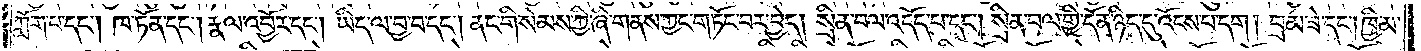ཀློག་པ་དང༌། ཁ་ཏོན་དང༌། རྣལ་འབྱོར་དང༌། ཡིད་ལ་བྱ་བ་དང༌། ནང་གི་སེམས་ཀྱི་ཞི་གནས་ཀྱང་གཏོང་བར་བྱེད། སྲིན་བལ་འདོད་པ་དང༌། སྲིན་བལ་གྱི་དོན་ཉིད་དུ་འོངས་པ་དག། བྲམ་ཟེ་དང༌། ཁྱིམ་
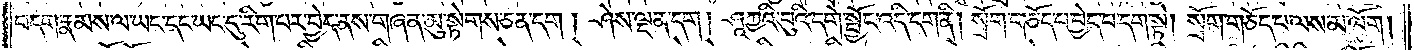བདག་རྣམས་ལ་ཡང་དང་ཡང་དུ་རིག་པར་བྱེད་ནས་གཞན་མུ་སྟེགས་ཅན་དག །ཤེས་ལྡན་དག། ཤཱཀྱའི་བུའི་དགེ་སྦྱོང་འདི་དག་ནི། སྲོག་གཅོད་པ་བྱེད་པ་དག་སྟེ། སྲོག་གཅོད་པ་ལས་མ་ལོག།
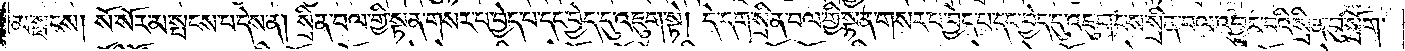མ་སྤངས། སོ་སོར་མ་སྤངས་པ་དེས་ན། སྲིན་བལ་གྱི་སྟན་གསར་པ་བྱེད་པ་དང་བྱེད་དུ་འཇུག་སྟེ། དེ་དག་སྲིན་བལ་གྱི་སྟན་གསར་པ་བྱེད་པ་དང་བྱེད་དུ་འཇུག་པས་སྲིན་བལ་འབྱུང་བའི་སྲིན་བུ་སྲོག་
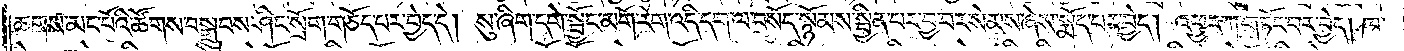ཆགས་མང་པོའི་ཚོགས་བསྒྲུབས་ཤིང་སྲོག་གཅོད་པར་བྱེད་དེ། སུ་ཞིག་དགེ་སྦྱོང་མགོ་རེག་འདི་དག་ལ་བསོད་སྙོམས་སྦྱིན་པར་བྱ་བར་སེམས་ཞེས་སྨོད་པར་བྱེད། འཕྱར་ཀ་གཏོང་བར་བྱེད། ཁ་
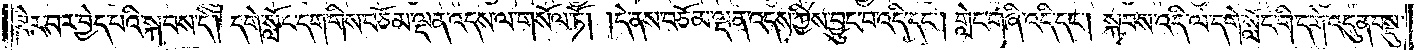ཟེར་བར་བྱེད་པའི་སྐབས་དེ། དགེ་སློང་དག་གིས་བཅོམ་ལྡན་འདས་ལ་གསོལ་ཏོ། །དེ་ནས་བཅོམ་ལྡན་འདས་ཀྱིས་བྱུང་བ་འདི་དང༌། གླེང་གཞི་འདི་དང༌། སྐབས་འདི་ལ་དགེ་སློང་གི་དགེ་འདུན་བསྡུ་
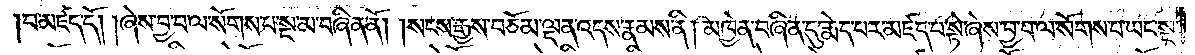བ་མཛད་དོ། །ཞེས་བྱ་བ་ལ་སོགས་པ་སྔ་མ་བཞིན་ནོ། །སངས་རྒྱས་བཅོམ་ལྡན་འདས་རྣམས་ནི། མཁྱེན་བཞིན་དུ་རྨེད་པར་མཛད་པ་སྟེ་ཞེས་བྱ་བ་ལ་སོགས་པ་ཡང་སྔ་
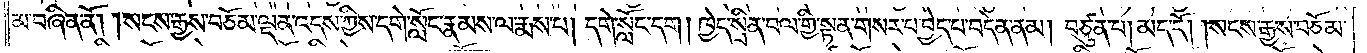མ་བཞིན་ནོ། །སངས་རྒྱས་བཅོམ་ལྡན་འདས་ཀྱིས་དགེ་སློང་རྣམས་ལ་སྨྲས་པ། དགེ་སློང་དག། ཁྱེད་སྲིན་བལ་གྱི་སྟན་གསར་པ་བྱེད་པ་བདེན་ནམ། བཙུན་པ། མད་དོ། །སངས་རྒྱས་བཅོམ་
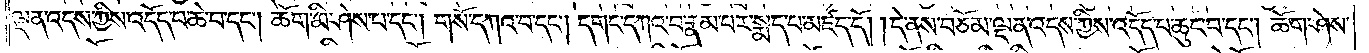ལྡན་འདས་ཀྱིས་འདོད་པ་ཆེ་བ་དང༌། ཆོག་མི་ཤེས་པ་དང༌། གསོ་དཀའ་བ་དང༌། དགང་དཀའ་བ་རྣམ་པར་སྨད་པ་མཛད་དོ། །དེ་ནས་བཅོམ་ལྡན་འདས་ཀྱིས་འདོད་པ་ཆུང་བ་དང༌། ཆོག་ཤེས་
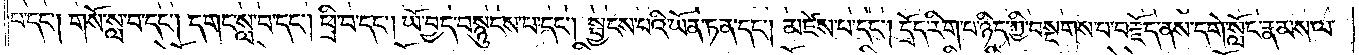པ་དང༌། གསོ་སླ་བ་དང༌། དགང་སླ་བ་དང༌། ཕྲི་བ་དང༌། ཡོ་བྱད་བསྙུངས་པ་དང༌། སྦྱངས་པའི་ཡོན་ཏན་དང༌། མཛེས་པ་དང༌། དྲོད་རིག་པ་ཉིད་ཀྱི་བསྔགས་པ་བརྗོད་ནས་དགེ་སློང་རྣམས་ལ་
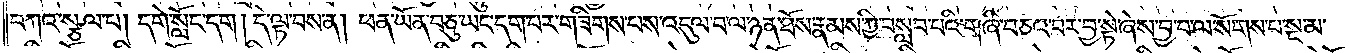བཀའ་སྩལ་པ། དགེ་སློང་དག། དེ་ལྟ་བས་ན། ཕན་ཡོན་བཅུ་ཡང་དག་པར་གཟིགས་པས་འདུལ་བ་ལ་ཉན་ཐོས་རྣམས་ཀྱི་བསླབ་པའི་གཞི་བཅའ་བར་བྱ་སྟེ་ཞེས་བྱ་བ་ལ་སོགས་པ་སྔ་མ་
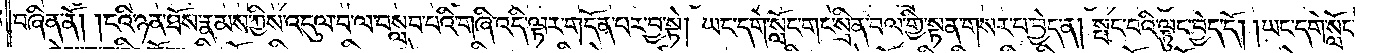བཞིན་ནོ། །ངའི་ཉན་ཐོས་རྣམས་ཀྱིས་འདུལ་བ་ལ་བསླབ་པའི་གཞི་འདི་ལྟར་གདོན་པར་བྱ་སྟེ། ཡང་དགེ་སློང་གང་སྲིན་བལ་གྱི་སྟན་གསར་པ་བྱེད་ན། སྤང་བའི་ལྟུང་བྱེད་དོ། །ཡང་དགེ་སློང་
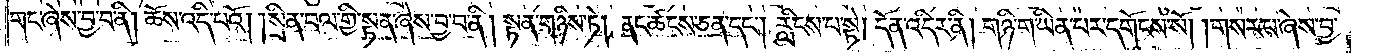གང་ཞེས་བྱ་བ་ནི། ཆོས་འདི་པའོ། །སྲིན་བལ་གྱི་སྟན་ཞེས་བྱ་བ་ནི། སྟན་གཉིས་ཏེ། ནང་ཚངས་ཅན་དང༌། རླིངས་པ་སྟེ། དོན་འདིར་ནི། གཉི་ག་ཡིན་པར་དགོངས་སོ། །གསར་པ་ཞེས་བྱ་
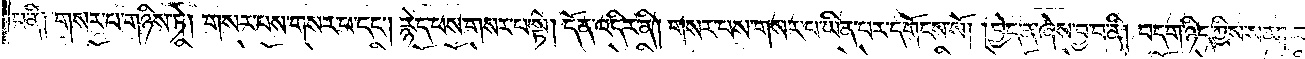པ་ནི། གསར་པ་གཉིས་ཏེ། གསར་པས་གསར་པ་དང༌། རྙེད་པས་གསར་པ་སྟེ། དོན་འདིར་ནི། གསར་པས་གསར་པ་ཡིན་པར་དགོངས་སོ། །བྱེད་ན་ཞེས་བྱ་བ་ནི། བདག་ཉིད་ཀྱིས་སམ། གཞན་བྱེད་
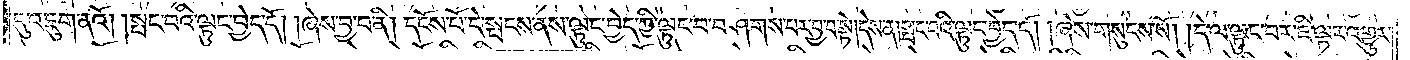དུ་འཇུག་ནའོ། །སྤང་བའི་ལྟུང་བྱེད་དོ། །ཞེས་བྱ་བ་ནི། དངོས་པོ་དེ་སྤངས་ནས་ལྟུང་བྱེད་ཀྱི་ལྟུང་བ་བཤགས་པར་བྱ་བ་སྟེ། དེས་ན། སྤང་བའི་ལྟུང་བྱེད་དོ། །ཞེས་གསུངས་སོ། །དེ་ལ་ལྟུང་བར་ཇི་ལྟར་འགྱུར་
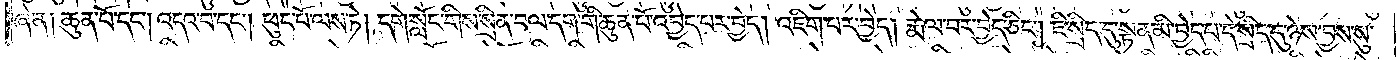ཞེ་ན། ཆུན་པོ་དང༌། འདའ་བ་དང༌། ཕུང་པོ་ལས་ཏེ། དགེ་སློང་གིས་སྲིན་བལ་དག་གི་ཆུན་པོ་འབྱེད་པར་བྱེད། འཇིག་པར་བྱེད། རྨེལ་བར་བྱེད་ཅིང༌། ཇི་སྲིད་དུ་སྟན་མི་བྱེད་པ་དེ་སྲིད་དུ་ཉེས་བྱས་སུ་
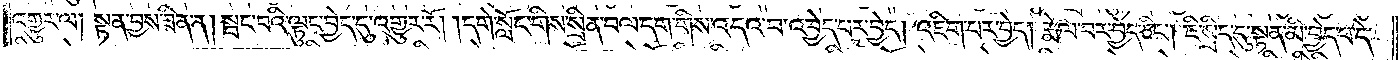འགྱུར་ལ། སྟན་བྱས་ཟིན་ན། སྤང་བའི་ལྟུང་བྱེད་དུ་འགྱུར་རོ། །དགེ་སློང་གིས་སྲིན་བལ་དག་གིས་འདའ་བ་འབྱེད་པར་བྱེད། འཇིག་པར་བྱེད། རྨེལ་བར་བྱེད་ཅིང༌། ཇི་སྲིད་དུ་སྟན་མི་བྱེད་པ་དེ་
